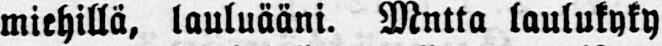miehillä, lauluääni. Mntta laulukyky
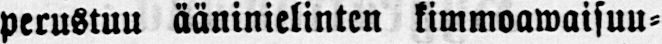perustuu ääninielinten kimmoawaisuu-
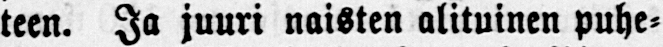teen. Ja juuri naisten alituinen puhe-
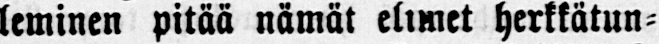leminen pitää nämät elimet herkkätun-
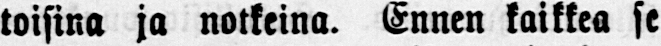toisina ja notkeina. Ennen kaikkea se
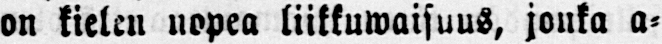on kielen nopea liikkuwaisuus, jonka a-
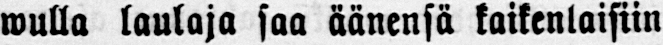wulla laulaja saa äänensä kaikenlaisiin
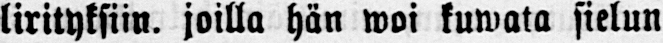lirityksiin, joilla hän woi kuwata sielun
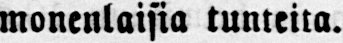monenlaisia tunteita.
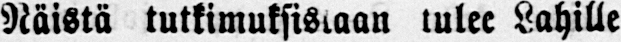Näistä tutkimuksissaan tulee Lahille
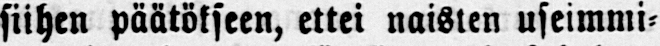siihen päätökseen, ettei naisten useimmi-
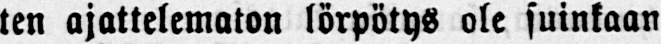ten ajattelematon lörpötys ole suinkaan
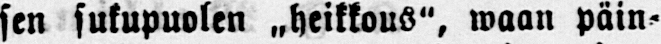sen sukupuolen ˶heikkous", waan päin-
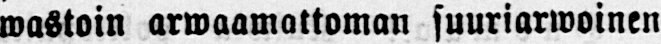wastoin arwaamattoman suuriarwoinen
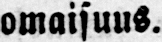omaisuus.
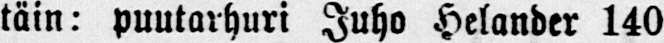täin: puutarhuri Juho Helander 140
